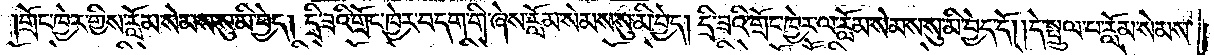གྲོང་ཁྱེར་གྱིས་རློམ་སེམས་སུ་མི་བྱེད། དྲི་ཟའི་གྲོང་ཁྱེར་བདག་གི་ཞེས་རློམ་སེམས་སུ་མི་བྱེད། དྲི་ཟའི་གྲོང་ཁྱེར་ལ་རློམ་སེམས་སུ་མི་བྱེད་དོ། །དེ་སྤྲུལ་པ་རློམ་སེམས་
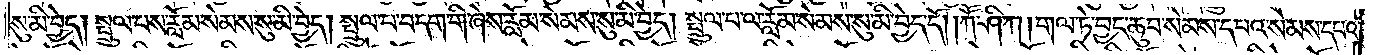སུ་མི་བྱེད། སྤྲུལ་པས་རློམ་སེམས་སུ་མི་བྱེད། སྤྲུལ་པ་བདག་གི་ཞེས་རློམ་སེམས་སུ་མི་བྱེད། སྤྲུལ་པ་ལ་རློམ་སེམས་སུ་མི་བྱེད་དོ། །ཀཽ་ཤི་ཀ། གལ་ཏེ་བྱང་ཆུབ་སེམས་དཔའ་སེམས་དཔའ་
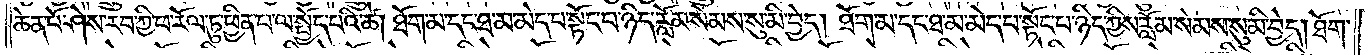ཆེན་པོ་ཤེས་རབ་ཀྱི་ཕ་རོལ་ཏུ་ཕྱིན་པ་ལ་སྤྱོད་པའི་ཚེ། ཐོག་མ་དང་ཐ་མ་མེད་པ་སྟོང་པ་ཉིད་རློམ་སེམས་སུ་མི་བྱེད། ཐོག་མ་དང་ཐ་མ་མེད་པ་སྟོང་པ་ཉིད་ཀྱིས་རློམ་སེམས་སུ་མི་བྱེད། ཐོག་
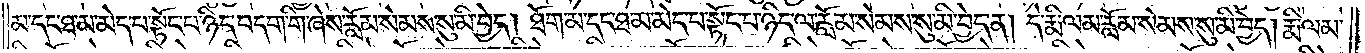མ་དང་ཐ་མ་མེད་པ་སྟོང་པ་ཉིད་བདག་གི་ཞེས་རློམ་སེམས་སུ་མི་བྱེད། ཐོག་མ་དང་ཐ་མ་མེད་པ་སྟོང་པ་ཉིད་ལ་རློམ་སེམས་སུ་མི་བྱེད་ན། དེ་རྨི་ལམ་རློམ་སེམས་སུ་མི་བྱེད། རྨི་ལམ་
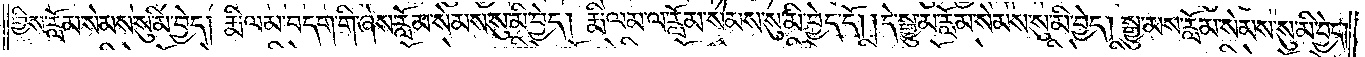གྱིས་རློམ་སེམས་སུ་མི་བྱེད། རྨི་ལམ་བདག་གི་ཞེས་རློམ་སེམས་སུ་མི་བྱེད། རྨི་ལམ་ལ་རློམ་སེམས་སུ་མི་བྱེད་དོ། །དེ་སྒྱུ་མ་རློམ་སེམས་སུ་མི་བྱེད། སྒྱུ་མས་རློམ་སེམས་སུ་མི་བྱེད།
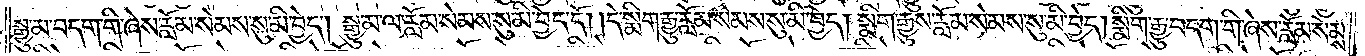སྒྱུ་མ་བདག་གི་ཞེས་རློམ་སེམས་སུ་མི་བྱེད། སྒྱུ་མ་ལ་རློམ་སེམས་སུ་མི་བྱེད་དོ། །དེ་སྨིག་གྱུ་རློམ་སེམས་སུ་མི་བྱེད། སྨིག་རྒྱུས་རློམ་སེམས་སུ་མི་བྱེད། སྨིག་རྒྱུ་བདག་གི་ཞེས་རློམ་སེམས་
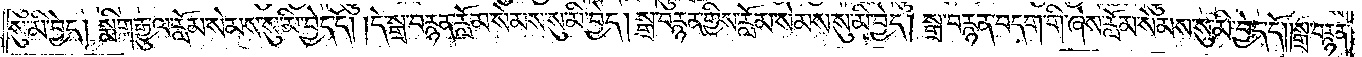སུ་མི་བྱེད། སྨིག་རྒྱུ་ལ་རློམ་སེམས་སུ་མི་བྱེད་དོ། །དེ་སྒྲ་བརྙན་རློམ་སེམས་སུ་མི་བྱེད། སྒྲ་བརྙན་གྱིས་རློམ་སེམས་སུ་མི་བྱེད། སྒྲ་བརྙན་བདག་གི་ཞེས་རློམ་སེམས་སུ་མི་བྱེད། སྒྲ་བརྙན་
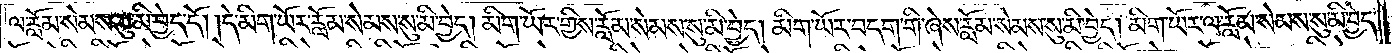ལ་རློམ་སེམས་སུ་མི་བྱེད་དོ། །དེ་མིག་ཡོར་རློམ་སེམས་སུ་མི་བྱེད་མིག་ཡོར་གྱིས་རློམ་སེམས་སུ་མི་བྱེད། མིག་ཡོར་བདག་གི་ཞེས་རློམ་སེམས་སུ་མི་བྱེད། མིག་ཡོར་ལ་རློམ་སེམས་སུ་མི་བྱེད་
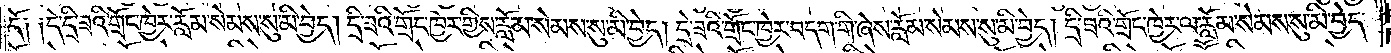དོ༑ ༑དེ་དྲི་ཟའི་གྲོང་ཁྱེར་རློམ་སེམས་སུ་མི་བྱེད། དྲི་ཟའི་གྲོང་ཁྱེར་གྱིས་རློམ་སེམས་སུ་མི་བྱེད། དྲི་ཟའི་གྲོང་ཁྱེར་བདག་གི་ཞེས་རློམ་སེམས་སུ་མི་བྱེད། དྲི་ཟའི་གྲོང་ཁྱེར་ལ་རློམ་སེམས་སུ་མི་བྱེད་
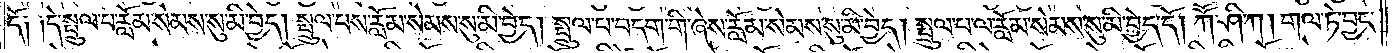དོ༑ ༑དེ་སྤྲུལ་པ་རློམ་སེམས་སུ་མི་བྱེད། སྤྲུལ་པས་རློམ་སེམས་སུ་མི་བྱེད། སྤྲུལ་པ་བདག་གི་ཞེས་རློམ་སེམས་སུ་མི་བྱེད། སྤྲུལ་པ་ལ་རློམ་སེམས་སུ་མི་བྱེད་དོ། །ཀཽ་ཤི་ཀ། གལ་ཏེ་བྱང་
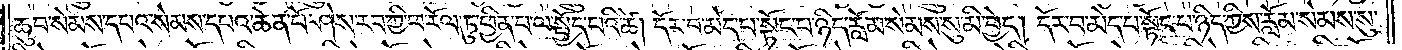ཆུབ་སེམས་དཔའ་སེམས་དཔའ་ཆེན་པོ་ཤེས་རབ་ཀྱི་ཕ་རོལ་ཏུ་ཕྱིན་པ་ལ་སྤྱོད་པའི་ཚེ། དོར་བ་མེད་པ་སྟོང་པ་ཉིད་རློམ་སེམས་སུ་མི་བྱེད། དོར་བ་མེད་པ་སྟོང་པ་ཉིད་ཀྱིས་རློམ་སེམས་སུ་
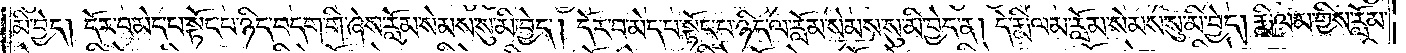མི་བྱེད། དོར་པ་མེད་པ་སྟོང་པ་ཉིད་བདག་གི་ཞེས་རློམ་སེམས་སུ་མི་བྱེད། དོར་བ་མེད་པ་སྟོང་པ་ཉིད་ལ་རློམ་སེམས་སུ་མི་བྱེད་ན། དེ་རྨི་ལམ་རློམ་སེམས་སུ་མི་བྱེད། རྨི་ལམ་གྱིས་རློམ་
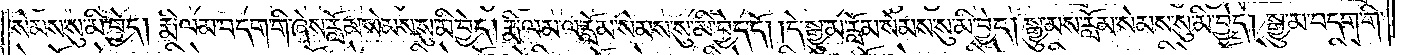སེམས་སུ་མི་བྱེད། རྨི་ལམ་བདག་གི་ཞེས་རློམ་སེམས་སུ་མི་བྱེད། རྨི་ལམ་ལ་རློམ་སེམས་སུ་མི་བྱེད་དོ། །དེ་སྒྱུ་མ་རློམ་སེམས་སུ་མི་བྱེད། སྒྱུ་མས་རློམ་སེམས་སུ་མི་བྱེད། སྒྱུ་མ་བདག་གི་
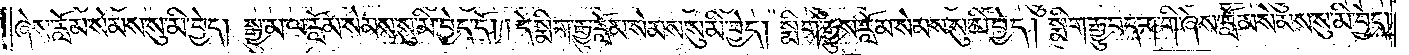ཞེས་རློམ་སེམས་སུ་མི་བྱེད། སྒྱུ་མ་ལ་རློམ་སེམས་སུ་མི་བྱེད་དོ། །དེ་སྨིག་རྒྱུ་རློམ་སེམས་སུ་མི་བྱེད། སྨིག་རྒྱུས་རློམ་སེམས་སུ་མི་བྱེད། སྨིག་རྒྱུ་བདག་གི་ཞེས་རློམ་སེམས་སུ་མི་བྱེད།
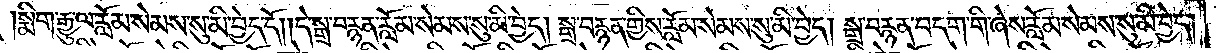སྨིག་རྒྱུ་ལ་རློམ་སེམས་སུ་མི་བྱེད་དོ། །དེ་སྒྲ་བརྙན་རློམ་སེམས་སུ་མི་བྱེད། སྒྲ་བརྙན་གྱིས་རློམ་སེམས་སུ་མི་བྱེད། སྒྲ་བརྙན་བདག་གི་ཞེས་རློམ་སེམས་སུ་མི་བྱེད།
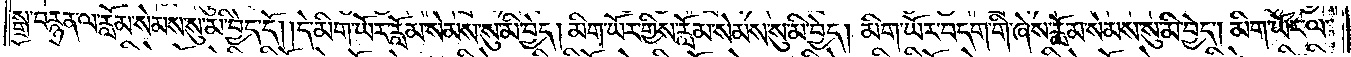སྒྲ་བརྙན་ལ་རློམ་སེམས་སུ་མི་བྱེད་དོ། །དེ་མིག་ཡོར་རློམ་སེམས་སུ་མི་བྱེད། མིག་ཡོར་གྱིས་རློམ་སེམས་སུ་མི་བྱེད། མིག་ཡོར་བདག་གི་ཞེས་རློམ་སེམས་སུ་མི་བྱེད། མིག་ཡོར་ལ་
